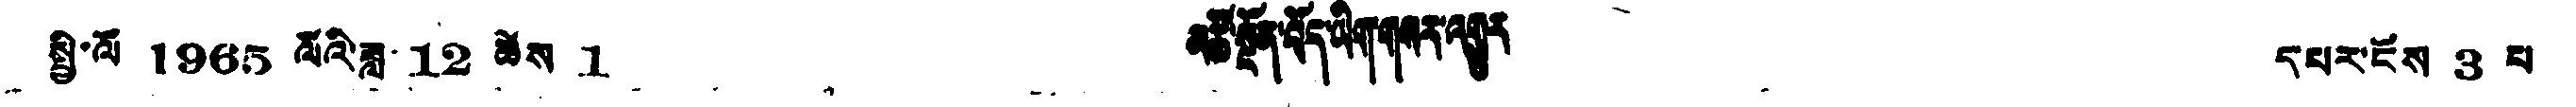སྤྱི་ལོ 1965 ལོའི་ཟླ་ 12 ཚེས 1 མཚོ་སྔོན་བོད་ཡིག་གསར་འགྱུར དཔར་ངོས 3 པ
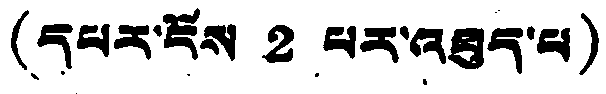(དཔར་ངོས 2 པར་འཕུད་པ)
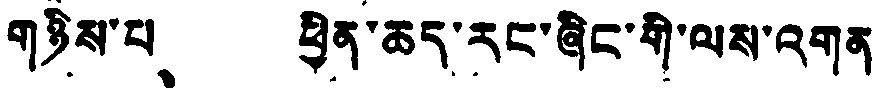གཉིས་པ、 ཕྱིན་ཆད་རང་ཞིང་གི་ལས་འགན
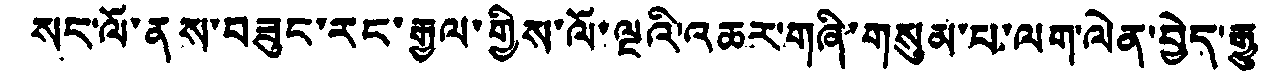སང་ལོ་ནས་བཟུང་རང་རྒྱལ་གྱིས་ལོ་ལྔའི་འཆར་གཞི་གསུམ་པ་ལག་ལེན་བྱེད་རྒྱུ
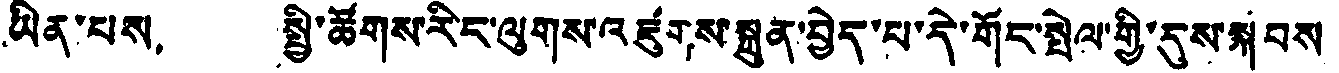ཡིན་པས， སྤྱི་ཚོགས་རིང་ལུགས་འཛུགས་སྐྲུན་བྱེད་པ་དེ་གོད་སྤེལ་གྱི་དུས་སྐབས
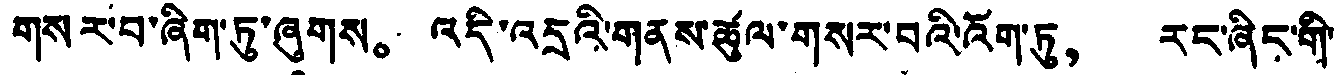གསར་བ་ཞིག་ཏུ་ཞུགས。 འདི་འདྲའི་གནས་ཚུལ་གསར་བའི་འོག་ཏུ， རང་ཞིང་གི་
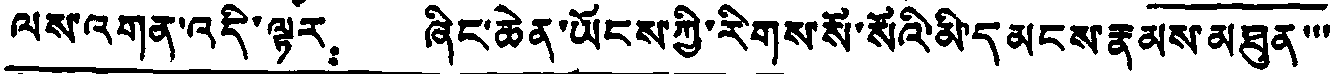ལས་འགན་འདི་ལྟར ཞིང་ཆེན་ཡོངས་ཀྱི་རིགས་སོ་སོའི་མི་དམངས་རྣམས་མཐུན་་་
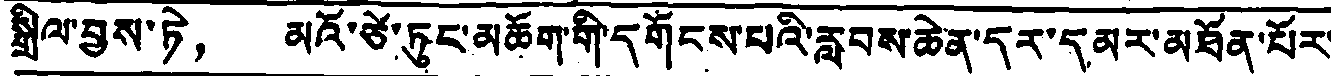སྒྲིལ་བྱས་ཏེ， མའོ་ཙེ་ཏུང་མཆོག་གི་དགོངས་པའི་རླབས་ཆེན་དར་དམར་མཐོན་པོར་
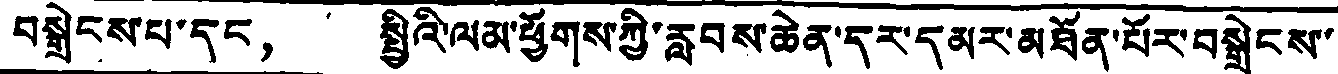བསྒྲེངས་པ་དང， སྤྱིའི་ལམ་ཕྱོགས་ཀྱི་རླབས་ཆེན་དར་དམར་མཐོན་པོར་བསྒྲེངས་
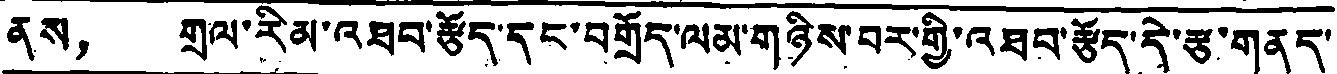ནས， གྲལ་རིམ་འཐབ་རྩོད་དང་བགྲོད་ལམ་གཉིས་བར་གྱི་འཐབ་རྩོད་དེ་རྩ་གནད་
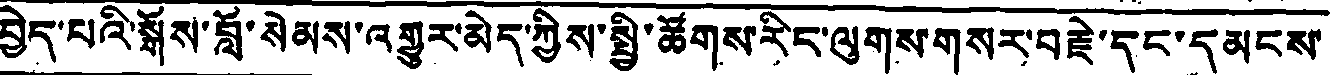བྱེད་པའི་སྒོས་བློ་སེམས་འགྱུར་མེད་ཀྱིས་སྤྱི་ཚོགས་རིང་ལུགས་གསར་བརྗེ་དང་དམངས་
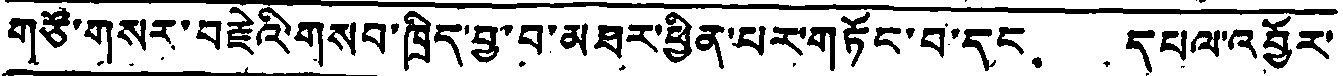གཙོ་གསར་བརྗེའི་གསབ་ཁྲིད་བྱ་བ་མཐར་ཕྱིན་པར་གཏོང་བ་དང， དཔལ་འབྱོར་
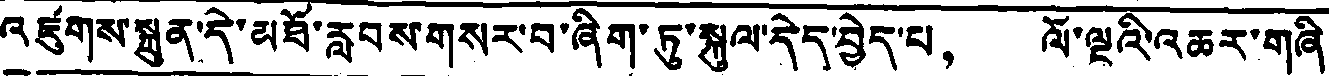འཛུགས་སྐྲུན་དེ་མཐོ་རླབས་གསར་བ་ཞིག་ཏུ་སྐུལ་དེད་བྱེད་པ， ལོ་ལྔའི་འཆར་གཞི
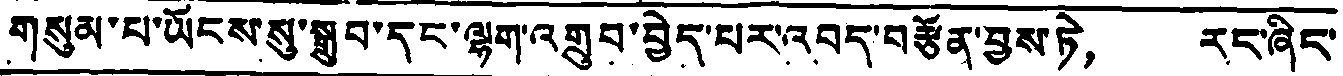གསུམ་པ་ཡོངས་སུ་སྒྲུབ་དང་ལྷག་འགྲུབ་བྱེད་པར་འབད་བརྩོན་བྱས་ཏེ， རང་ཞིང་
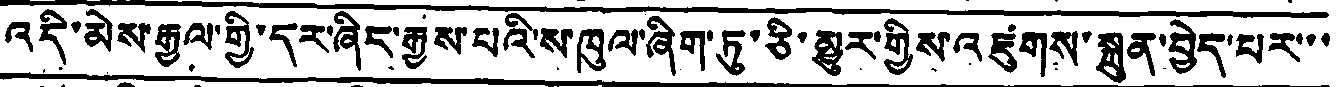འདི་མེས་རྒྱལ་གྱི་དར་ཞིང་རྒྱས་པའི་ས་ཁུལ་ཞིག་ཏུ་ཅི་མྱུར་གྱིས་འཛུགས་སྐྲུན་བྱེད་པར་་་
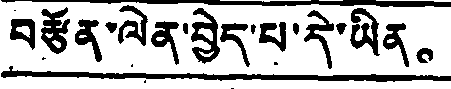བརྩོན་ལེན་བྱེད་པ་དེ་ཡིན。
